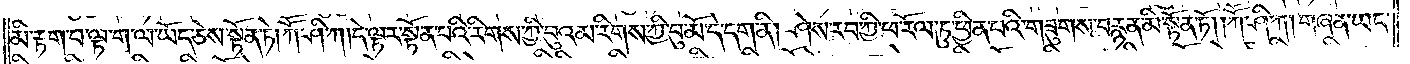མི་རྟག་པ་ལྟ་ག་ལ་ཡོད་ཅེས་སྟོན་ཏེ། ཀོ་ཤི་ཀ། དེ་ལྟར་སྟོན་པའི་རིགས་ཀྱི་བུའམ་རིགས་ཀྱི་བུ་མོ་དེ་དག་ནི། ཤེས་རབ་ཀྱི་ཕ་རོལ་ཏུ་ཕྱིན་པའི་གཟུགས་བརྙན་མི་སྟོན་ཏོ། །ཀཽ་ཤི་ཀ། གཞན་ཡང་
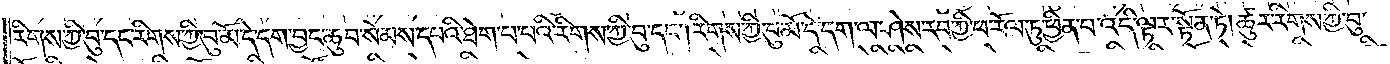རིགས་ཀྱི་བུ་དང་རིགས་ཀྱི་བུ་མོ་དེ་དག་བྱང་ཆུབ་སེམས་དཔའི་ཐེག་པ་པའི་རིགས་ཀྱི་བུ་དང༌། རིགས་ཀྱི་བུ་མོ་དེ་དག་ལ་ཤེས་རབ་ཀྱི་ཕ་རོལ་ཏུ་ཕྱིན་པ་འདི་ལྟར་སྟོན་ཏེ། ཚུར་རིགས་ཀྱི་བུ་
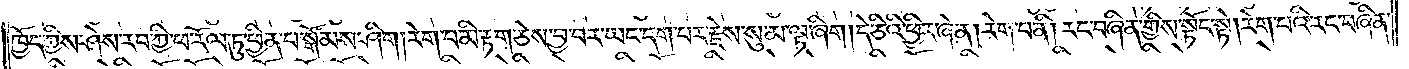ཁྱོད་ཀྱིས་ཤེས་རབ་ཀྱི་ཕ་རོལ་ཏུ་ཕྱིན་པ་སྒོམས་ཤིག །རེག་པ་མི་རྟག་ཅེས་བྱ་བར་ཡང་དག་པར་རྗེས་སུ་མ་ལྟ་ཞིག །དེ་ཅིའི་ཕྱིར་ཞེ་ན། རེག་པ་ནི། རང་བཞིན་གྱིས་སྟོང་སྟེ། རེག་པའི་རང་བཞིན་
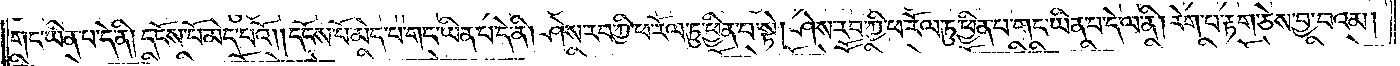གང་ཡིན་པ་དེ་ནི། དངོས་པོ་མེད་པའོ། །དངོས་པོ་མེད་པ་གང་ཡིན་པ་དེ་ནི། ཤེས་རབ་ཀྱི་ཕ་རོལ་ཏུ་ཕྱིན་པ་སྟེ། ཤེས་རབ་ཀྱི་ཕ་རོལ་ཏུ་ཕྱིན་པ་གང་ཡིན་པ་དེ་ལ་ནི། རེག་པ་རྟག་ཅེས་བྱ་བའམ།
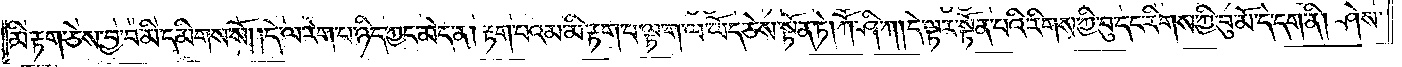མི་རྟག་ཅེས་བྱ་བ་མི་དམིགས་སོ། །དེ་ལ་རེག་པ་ཉིད་ཀྱང་མེད་ན། རྟག་པའམ་མི་རྟག་པ་ལྟ་ག་ལ་ཡོད་ཅེས་སྟོན་ཏེ། ཀཽ་ཤི་ཀ། དེ་ལྟར་སྟོན་པའི་རིགས་ཀྱི་བུ་དང་རིགས་ཀྱི་བུ་མོ་དེ་དག་ནི། ཤེས་
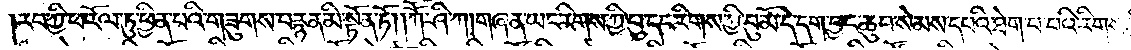རབ་ཀྱི་ཕ་རོལ་ཏུ་ཕྱིན་པའི་གཟུགས་བརྙན་མི་སྟོན་ཏོ། །ཀཽ་ཤི་ཀ། གཞན་ཡང་རིགས་ཀྱི་བུ་དང་རིགས་ཀྱི་བུ་མོ་དེ་དག་བྱང་ཆུབ་སེམས་དཔའི་ཐེག་པ་པའི་རིགས་ཀྱི་བུ་
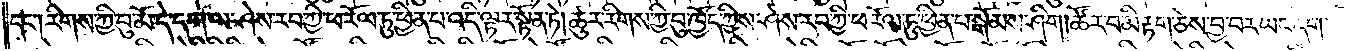དང༌། རིགས་ཀྱི་བུ་མོ་དེ་དག་ལ་ཤེས་རབ་ཀྱི་ཕ་རོལ་ཏུ་ཕྱིན་པ་འདི་ལྟར་སྟོན་ཏེ། ཚུར་རིགས་ཀྱི་བུ་ཁྱོད་ཀྱིས་ཤེས་རབ་ཀྱི་ཕ་རོལ་ཏུ་ཕྱིན་པ་སྒོམས་ཤིག །ཚོར་བ་མི་རྟག་ཅེས་བྱ་བར་ཡང་དག་
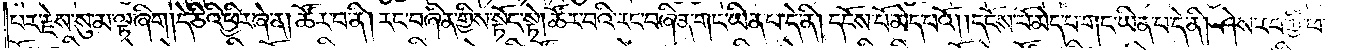པར་རྗེས་སུ་མ་ལྟ་ཞིག །དེ་ཅིའི་ཕྱིར་ཞེ་ན། ཚོར་བ་ནི། རང་བཞིན་གྱིས་སྟོང་སྟེ། ཚོར་བའི་རང་བཞིན་གང་ཡིན་པ་དེ་ནི། དངོས་པོ་མེད་པའོ། །དངོས་པོ་མེད་པ་གང་ཡིན་པ་དེ་ནི། ཤེས་རབ་ཀྱི་ཕ་
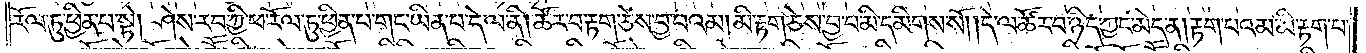རོལ་ཏུ་ཕྱིན་པ་སྟེ། ཤེས་རབ་ཀྱི་ཕ་རོལ་ཏུ་ཕྱིན་པ་གང་ཡིན་པ་དེ་ལ་ནི། ཚོར་བ་རྟག་ཅེས་བྱ་བའམ། མི་རྟག་ཅེས་བྱ་བ་མི་དམིགས་སོ། །དེ་ལ་ཚོར་བ་ཉིད་ཀྱང་མེད་ན། རྟག་པའམ་མི་རྟག་པ་
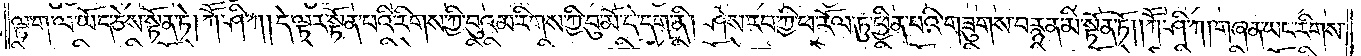ལྟ་ག་ལ་ཡོད་ཅེས་སྟོན་ཏེ། ཀཽ་ཤི་ཀ། དེ་ལྟར་སྟོན་པའི་རིགས་ཀྱི་བུའམ་རིགས་ཀྱི་བུ་མོ་དེ་དག་ནི། ཤེས་རབ་ཀྱི་ཕ་རོལ་ཏུ་ཕྱིན་པའི་གཟུགས་བརྙན་མི་སྟོན་ཏོ། །ཀཽ་ཤི་ཀ། གཞན་ཡང་རིགས་
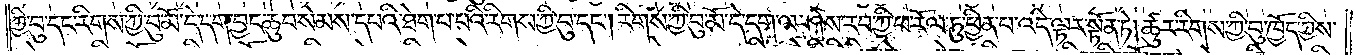ཀྱི་བུ་དང་རིགས་ཀྱི་བུ་མོ་དེ་དག་བྱང་ཆུབ་སེམས་དཔའི་ཐེག་པ་པའི་རིགས་ཀྱི་བུ་དང༌། རིགས་ཀྱི་བུ་མོ་དེ་དག་ལ་ཤེས་རབ་ཀྱི་ཕ་རོལ་ཏུ་ཕྱིན་པ་འདི་ལྟར་སྟོན་ཏེ། ཚུར་རིགས་ཀྱི་བུ་ཁྱོད་ཀྱིས་
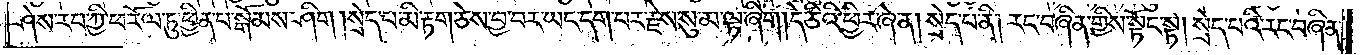ཤེས་རབ་ཀྱི་ཕ་རོལ་ཏུ་ཕྱིན་པ་སྒོམས་ཤིག །སྲེད་པ་མི་རྟག་ཅེས་བྱ་བར་ཡང་དག་པར་རྗེས་སུ་མ་ལྟ་ཞིག །དེ་ཅིའི་ཕྱིར་ཞེ་ན། སྲེད་པ་ནི། རང་བཞིན་གྱིས་སྟོང་སྟེ། སྲེད་པའི་རང་བཞིན་
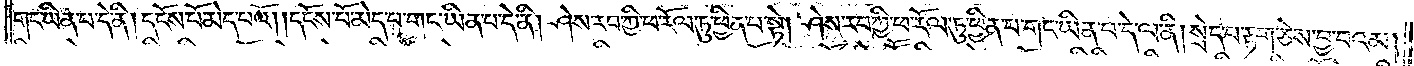གང་ཡིན་པ་དེ་ནི། དངོས་པོ་མེད་པའོ། །དངོས་པོ་མེད་པ་གང་ཡིན་པ་དེ་ནི། ཤེས་རབ་ཀྱི་ཕ་རོལ་ཏུ་ཕྱིན་པ་སྟེ། ཤེས་རབ་ཀྱི་ཕ་རོལ་ཏུ་ཕྱིན་པ་གང་ཡིན་པ་དེ་ལ་ནི། སྲེད་པ་རྟག་ཅེས་བྱ་བའམ།
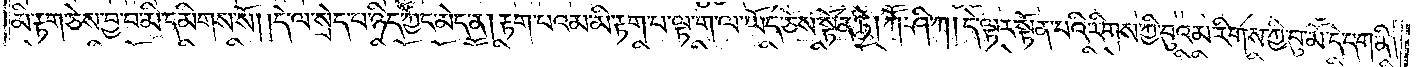མི་རྟག་ཅེས་བྱ་བ་མི་དམིགས་སོ། །དེ་ལ་སྲེད་པ་ཉིད་ཀྱང་མེད་ན། རྟག་པའམ་མི་རྟག་པ་ལྟ་ག་ལ་ཡོད་ཅེས་སྟོན་ཏེ། ཀཽ་ཤི་ཀ། དེ་ལྟར་སྟོན་པའི་རིགས་ཀྱི་བུའམ་རིགས་ཀྱི་བུ་མོ་དེ་དག་ནི།
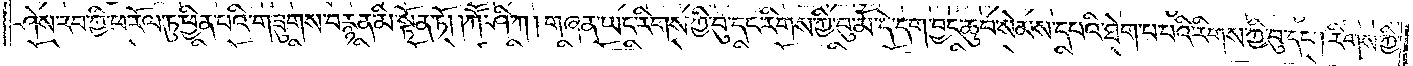ཤེས་རབ་ཀྱི་ཕ་རོལ་ཏུ་ཕྱིན་པའི་གཟུགས་བརྙན་མི་སྟོན་ཏོ། །ཀཽ་ཤི་ཀ། གཞན་ཡང་རིགས་ཀྱི་བུ་དང་རིགས་ཀྱི་བུ་མོ་དེ་དག་བྱང་ཆུབ་སེམས་དཔའི་ཐེག་པ་པའི་རིགས་ཀྱི་བུ་དང༌། རིགས་ཀྱི་
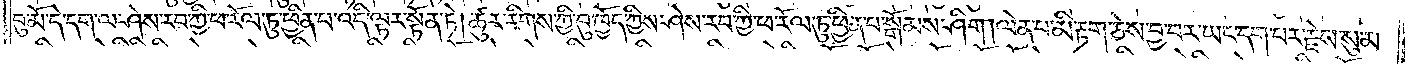བུ་མོ་དེ་དག་ལ་ཤེས་རབ་ཀྱི་ཕ་རོལ་ཏུ་ཕྱིན་པ་འདི་ལྟར་སྟོན་ཏེ། ཚུར་རིགས་ཀྱི་བུ་ཁྱོད་ཀྱིས་ཤེས་རབ་ཀྱི་ཕ་རོལ་ཏུ་ཕྱིན་པ་སྒོམས་ཤིག །ལེན་པ་མི་རྟག་ཅེས་བྱ་བར་ཡང་དག་པར་རྗེས་སུ་མ་
